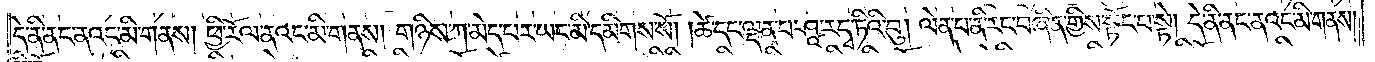དེ་ནི་ནང་ནའང་མི་གནས། ཕྱི་རོལ་ནའང་མི་གནས། གཉིས་ཀ་མེད་པར་ཡང་མི་དམིགས་སོ། །ཚེ་དང་ལྡན་པ་ཤཱ་ར་དྭ་ཏིའི་བུ། ལེན་པ་ནི་རང་བཞིན་གྱིས་སྟོང་པ་སྟེ། དེ་ནི་ནང་ནའང་མི་གནས།
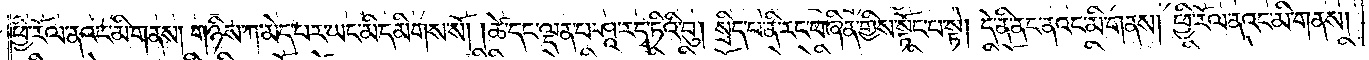ཕྱི་རོལ་ནའང་མི་གནས། གཉིས་ཀ་མེད་པར་ཡང་མི་དམིགས་སོ། །ཚེ་དང་ལྡན་པ་ཤཱ་ར་དྭ་ཏིའི་བུ། སྲིད་པ་ནི་རང་བཞིན་གྱིས་སྟོང་པ་སྟེ། དེ་ནི་ནང་ནའང་མི་གནས། ཕྱི་རོལ་ནའང་མི་གནས།
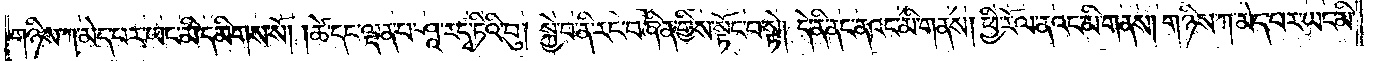གཉིས་ཀ་མེད་པར་ཡང་མི་དམིགས་སོ། །ཚེ་དང་ལྡན་པ་ཤཱ་ར་དྭ་ཏིའི་བུ། སྐྱེ་བ་ནི་རང་བཞིན་གྱིས་སྟོང་པ་སྟེ། དེ་ནི་ནང་ནའང་མི་གནས། ཕྱི་རོལ་ནའང་མི་གནས། གཉིས་ཀ་མེད་པར་ཡང་མི་
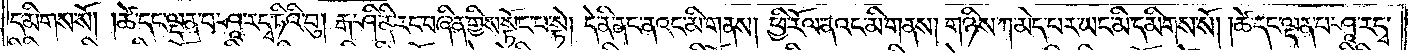དམིགས་སོ། །ཚེ་དང་ལྡན་པ་ཤཱ་ར་དྭ་ཏིའི་བུ། རྒ་ཤི་ནི་རང་བཞིན་གྱིས་སྟོང་པ་སྟེ། དེ་ནི་ནང་ནའང་མི་གནས། ཕྱི་རོལ་ནའང་མི་གནས། གཉིས་ཀ་མེད་པར་ཡང་མི་དམིགས་སོ། །ཚེ་དང་ལྡན་པ་ཤཱ་ར་དྭ་
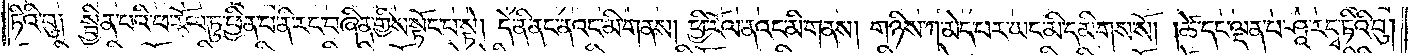ཏིའི་བུ། སྦྱིན་པའི་ཕ་རོལ་ཏུ་ཕྱིན་པ་ནི་རང་བཞིན་གྱིས་སྟོང་པ་སྟེ། དེ་ནི་ནང་ནའང་མི་གནས། ཕྱི་རོལ་ནའང་མི་གནས། གཉིས་ཀ་མེད་པར་ཡང་མི་དམིགས་སོ། །ཚེ་དང་ལྡན་པ་ཤཱ་ར་དྭ་ཏིའི་བུ།
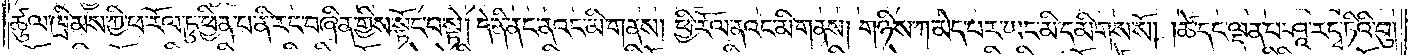ཚུལ་ཁྲིམས་ཀྱི་ཕ་རོལ་ཏུ་ཕྱིན་པ་ནི་རང་བཞིན་གྱིས་སྟོང་པ་སྟེ། དེ་ནི་ནང་ནའང་མི་གནས། ཕྱི་རོལ་ནའང་མི་གནས། གཉིས་ཀ་མེད་པར་ཡང་མི་དམིགས་སོ། །ཚེ་དང་ལྡན་པ་ཤཱ་ར་དྭ་ཏིའི་བུ།
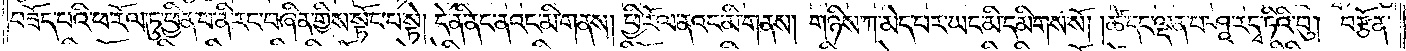བཟོད་པའི་ཕ་རོལ་ཏུ་ཕྱིན་པ་ནི་རང་བཞིན་གྱིས་སྟོང་པ་སྟེ། དེ་ནི་ནང་ནའང་མི་གནས། ཕྱི་རོལ་ནའང་མི་གནས། གཉིས་ཀ་མེད་པར་ཡང་མི་དམིགས་སོ། །ཚེ་དང་ལྡན་པ་ཤཱ་ར་དྭ་ཏིའི་བུ། བརྩོན་
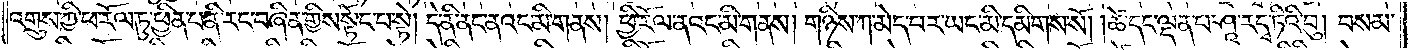འགྲུས་ཀྱི་ཕ་རོལ་ཏུ་ཕྱིན་པ་ནི་རང་བཞིན་གྱིས་སྟོང་པ་སྟེ། དེ་ནི་ནང་ནའང་མི་གནས། ཕྱི་རོལ་ནའང་མི་གནས། གཉིས་ཀ་མེད་པར་ཡང་མི་དམིགས་སོ། །ཚེ་དང་ལྡན་པ་ཤཱ་ར་དྭ་ཏིའི་བུ། བསམ་
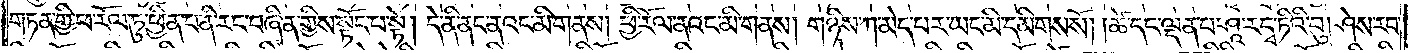གཏན་གྱི་ཕ་རོལ་ཏུ་ཕྱིན་པ་ནི་རང་བཞིན་གྱིས་སྟོང་པ་སྟེ། དེ་ནི་ནང་ནའང་མི་གནས། ཕྱི་རོལ་ནའང་མི་གནས། གཉིས་ཀ་མེད་པར་ཡང་མི་དམིགས་སོ། །ཚེ་དང་ལྡན་པ་ཤཱ་ར་དྭ་ཏིའི་བུ། ཤེས་རབ་
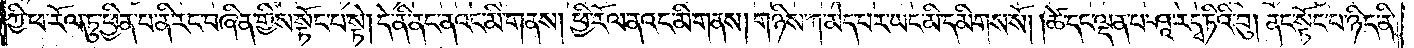ཀྱི་ཕ་རོལ་ཏུ་ཕྱིན་པ་ནི་རང་བཞིན་གྱིས་སྟོང་པ་སྟེ། དེ་ནི་ནང་ནའང་མི་གནས་ཕྱི་རོལ་ནའང་མི་གནས་གཉིས་ཀ་མེད་པར་ཡང་མི་དམིགས་སོ། །ཚེ་དང་ལྡན་པ་ཤཱ་ར་དྭ་ཏིའི་བུ། ནང་སྟོང་པ་ཉིད་ནི་
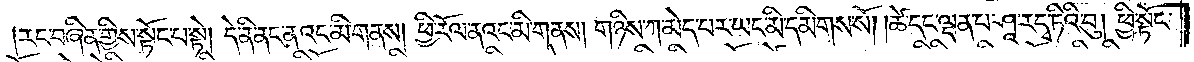རང་བཞིན་གྱིས་སྟོང་པ་སྟེ། དེ་ནི་ནང་ནའང་མི་གནས་ཕྱི་རོལ་ནའང་མི་གནས་གཉིས་ཀ་མེད་པར་ཡང་མི་དམིགས་སོ། །ཚེ་དང་ལྡན་པ་ཤཱ་ར་དྭ་ཏིའི་བུ། ཕྱི་སྟོང་
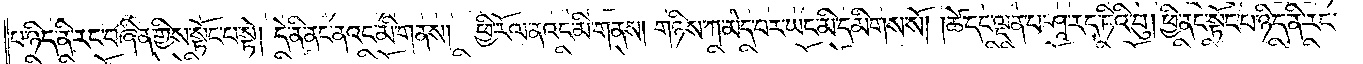པ་ཉིད་ནི་རང་བཞིན་གྱིས་སྟོང་པ་སྟེ། དེ་ནི་ནང་ནའང་མི་གནས། ཕྱི་རོལ་ནའང་མི་གནས། གཉིས་ཀ་མེད་པར་ཡང་མི་དམིགས་སོ། །ཚེ་དང་ལྡན་པ་ཤཱ་ར་དྭ་ཏིའི་བུ། ཕྱི་ནང་སྟོང་པ་ཉིད་ནི་རང་
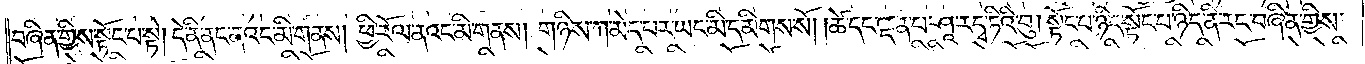བཞིན་གྱིས་སྟོང་པ་སྟེ། དེ་ནི་ནང་ནའང་མི་གནས། ཕྱི་རོལ་ནའང་མི་གནས། གཉིས་ཀ་མེད་པར་ཡང་མི་དམིགས་སོ། །ཚེ་དང་ལྡན་པ་ཤཱ་ར་དྭ་ཏིའི་བུ། སྟོང་པ་ཉིད་སྟོང་པ་ཉིད་ནི་རང་བཞིན་གྱིས་
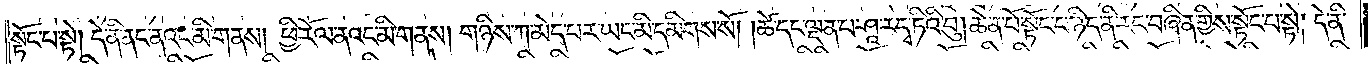སྟོང་པ་སྟེ། དེ་ནི་ནང་ནའང་མི་གནས། ཕྱི་རོལ་ནའང་མི་གནས། གཉིས་ཀ་མེད་པར་ཡང་མི་དམིགས་སོ། །ཚེ་དང་ལྡན་པ་ཤཱ་ར་དྭ་ཏིའི་བུ། ཆེན་པོ་སྟོང་པ་ཉིད་ནི་རང་བཞིན་གྱིས་སྟོང་པ་སྟེ། དེ་ནི་
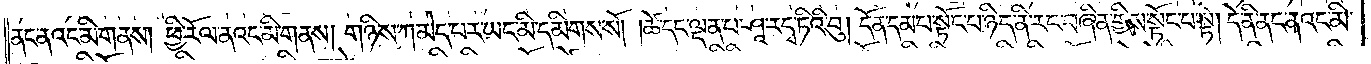ནང་ནའང་མི་གནས། ཕྱི་རོལ་ནའང་མི་གནས། གཉིས་ཀ་མེད་པར་ཡང་མི་དམིགས་སོ། །ཚེ་དང་ལྡན་པ་ཤཱ་ར་དྭ་ཏིའི་བུ། དོན་དམ་པ་སྟོང་པ་ཉིད་ནི་རང་བཞིན་གྱིས་སྟོང་པ་སྟེ། དེ་ནི་ནང་ནའང་མི་
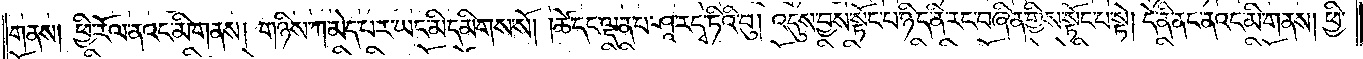གནས། ཕྱི་རོལ་ནའང་མི་གནས། གཉིས་ཀ་མེད་པར་ཡང་མི་དམིགས་སོ། །ཚེ་དང་ལྡན་པ་ཤཱ་ར་དྭ་ཏིའི་བུ། འདུས་བྱས་སྟོང་པ་ཉིད་ནི་རང་བཞིན་གྱིས་སྟོང་པ་སྟེ། དེ་ནི་ནང་ནའང་མི་གནས། ཕྱི་
